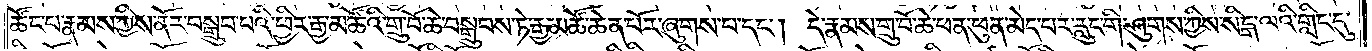ཚོང་པ་རྣམས་ཀྱིས་ནོར་བསྒྲུབ་པའི་ཕྱིར་རྒྱ་མཚོའི་གྲུ་བོ་ཆེ་བསྒྲུབས་ཏེ་རྒྱ་མཚོ་ཆེན་པོར་ཞུགས་པ་དང༌། དེ་རྣམས་གྲུ་བོ་ཆེ་ཕན་ཕུན་མེད་པར་རླུང་གི་ཤུགས་ཀྱིས་སིངྒ་ལའི་གླིང་དུ་
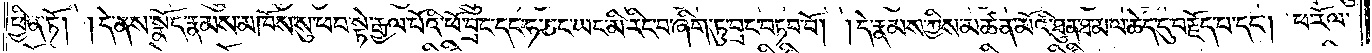ཕྱིན་ཏོ། །དེ་ནས་སྣོད་རྣམས་མཁོས་སུ་ཕབ་སྟེ་རྒྱལ་པོའི་ཕོ་བྲང་དང་ཧ་ཅང་ཡང་མི་རིང་བ་ཞིག་ཏུ་བྲང་བཏབ་བོ། །དེ་རྣམས་ཀྱིས་མཚན་མོའི་ཐུན་ཐ་མ་ལ་ཆེད་དུ་བརྗོད་པ་དང༌། ཕ་རོལ་
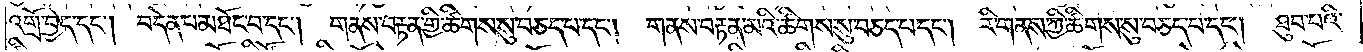འགྲོ་བྱེད་དང༌། བདེན་པ་མཐོང་བ་དང༌། གནས་བརྟན་གྱི་ཚིགས་སུ་བཅད་པ་དང༌། གནས་བརྟན་མའི་ཚིགས་སུ་བཅད་པ་དང༌། རི་གནས་ཀྱི་ཚིགས་སུ་བཅད་པ་དང༌། ཐུབ་པའི་
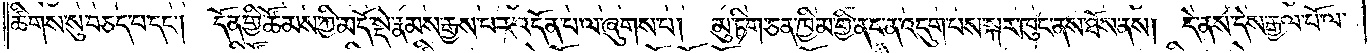ཚིགས་སུ་བཅད་པ་དང༌། དོན་གྱི་ཚོམས་ཀྱི་མདོ་སྡེ་རྣམས་རྒྱས་པར་འདོན་པ་ལ་ཞུགས་པ། མུ་ཏིག་ཅན་ཁྱིམ་གྱི་ནང་ན་འདུག་པས་སྐར་ཁུང་ནས་ཐོས་ནས། དེ་ནས་དེས་རྒྱལ་པོ་ལ་
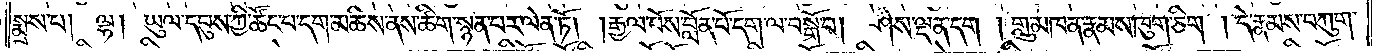སྨྲས་པ། ལྷ། ཡུལ་དབུས་ཀྱི་ཚོང་པ་དག་མཆིས་ནས་ཚིག་སྙན་པར་ལེན་ཏོ། །རྒྱལ་པོས་བློན་པོ་དག་ལ་བསྒོ་བ། ཤེས་ལྡན་དག། གླུ་མཁན་རྣམས་ཁུག་ཅིག། དེ་རྣམས་བཀུག་
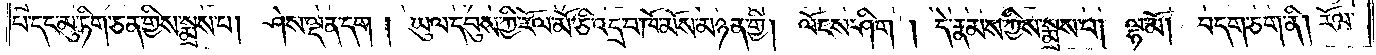པ་དང་མུ་ཏིག་ཅན་གྱིས་སྨྲས་པ། ཤེས་ལྡན་དག །ཡུལ་དབུས་ཀྱི་རོལ་མོ་ཅི་འདྲ་བ་ཁོ་མོས་མཉན་གྱི། ལོངས་ཤིག །དེ་རྣམས་ཀྱིས་སྨྲས་པ། ལྷ་མོ། བདག་ཅག་ནི། རོལ་
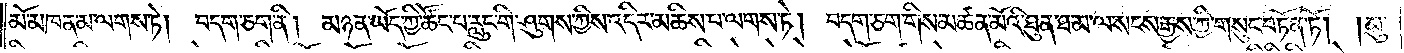མོ་མཁན་མ་ལགས་ཏེ། བདག་ཅག་ནི། མཉན་ཡོད་ཀྱི་ཚོང་པ་རླུང་གི་ཤུགས་ཀྱིས་འདིར་མཆིས་པ་ལགས་ཏེ། བདག་ཅག་གིས་མཚན་མོའི་ཐུན་ཐ་མ་ལ་སངས་རྒྱས་ཀྱི་གསུང་བཏོན་ཏོ། །མུ་
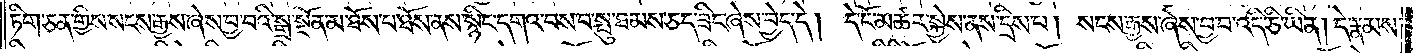ཏིག་ཅན་གྱིས་སངས་རྒྱས་ཞེས་བྱ་བའི་སྒྲ་སྔོན་མ་ཐོས་པ་ཐོས་ནས་སྙིང་དགའ་བས་བ་སྤུ་ཐམས་ཅད་ཟིང་ཞེས་བྱེད་དེ། དེ་ངོ་མཚར་སྐྱེས་ནས་དྲིས་པ། སངས་རྒྱས་ཞེས་བྱ་བ་འདི་ཅི་ཡིན། དེ་རྣམས་
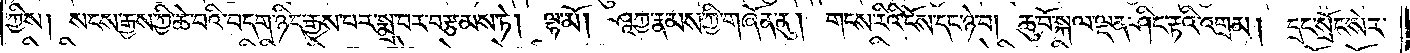ཀྱིས། སངས་རྒྱས་ཀྱི་ཆེ་བའི་བདག་ཉིད་རྒྱས་པར་སྨྲ་བར་བརྩམས་ཏེ། ལྷ་མོ། ཤཱཀྱ་རྣམས་ཀྱི་གཞོན་ནུ། གངས་རིའི་ངོས་དང་ཉེ་བ། ཆུ་བོ་སྐལ་ལྡན་ཤིང་རྟའི་འགྲམ། དྲང་སྲོང་སེར་
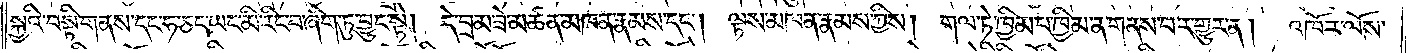སྐྱའི་བསྟི་གནས་དང་ཧ་ཅང་ཡང་མི་རིང་བ་ཞིག་ཏུ་བྱུང་སྟེ། དེ་བྲམ་ཟེ་མཚན་མཁན་རྣམས་དང༌། ལྟས་མཁན་རྣམས་ཀྱིས། གལ་ཏེ་ཁྱིམ་པ་ཁྱིམ་ན་གནས་པར་གྱུར་ན། འཁོར་ལོས་
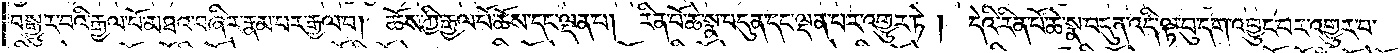བསྒྱུར་བའི་རྒྱལ་པོ་མཐའ་བཞིར་རྣམ་པར་རྒྱལ་བ། ཆོས་ཀྱི་རྒྱལ་པོ་ཆོས་དང་ལྡན་པ། རིན་པོ་ཆེ་སྣ་བདུན་དང་ལྡན་པར་འགྱུར་ཏེ། དེའི་རིན་པོ་ཆེ་སྣ་བདུན་འདི་ལྟ་བུ་དག་འབྱུང་བར་འགྱུར་བ་
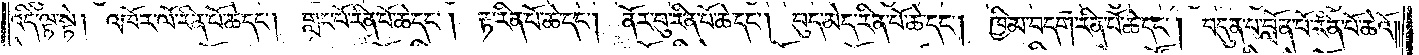འདི་ལྟ་སྟེ། འཁོར་ལོ་རིན་པོ་ཆེ་དང༌། གླང་པོ་རིན་པོ་ཆེ་དང༌། རྟ་རིན་པོ་ཆེ་དང༌། ནོར་བུ་རིན་པོ་ཆེ་དང༌། བུད་མེད་རིན་པོ་ཆེ་དང༌། ཁྱིམ་བདག་རིན་པོ་ཆེ་དང༌། བདུན་པ་བློན་པོ་རིན་པོ་ཆེའོ༎
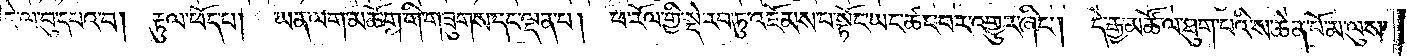དེ་ལ་བུ་དཔའ་བ། རྟུལ་ཕོད་པ། ཡན་ལག་མཆོག་གི་གཟུགས་དང་ལྡན་པ། ཕ་རོལ་གྱི་སྡེ་རབ་ཏུ་འཇོམས་པ་སྟོང་ཡང་ཚང་བར་འགྱུར་ཞིང༌། དེ་རྒྱ་མཚོ་ལ་ཐུག་པའི་ས་ཆེན་པོ་མ་ལུས་
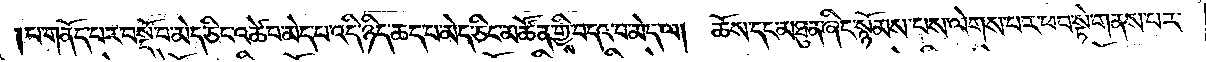།པ་གནོད་པར་བསྡོ་བ་མེད་ཅིང་འཚེ་བ་མེད་པ་འདི་ཉིད་ཆད་པ་མེད་ཅིང་མཚོན་གྱིས་བདའ་བ་མེད་ལ། ཆོས་དང་མཐུན་ཞིང་སྙོམས་པས་ལེགས་པར་ཕབ་སྟེ་གནས་པར་
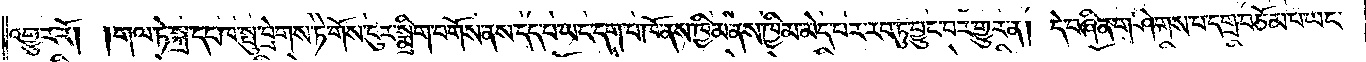འགྱུར་རོ། །གལ་ཏེ་སྐྲ་དང་ཁ་སྤུ་བྲེགས་ཏེ་གོས་ངུར་སྨྲིག་བགོས་ནས་དད་པ་ཡང་དག་པ་ཁོ་ནས་ཁྱིམ་ནས་ཁྱིམ་མེད་པར་རབ་ཏུ་བྱུང་བར་གྱུར་ན། དེ་བཞིན་གཤེགས་པ་དགྲ་བཅོམ་པ་ཡང་
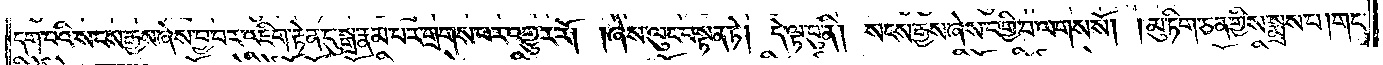དག་པའི་སངས་རྒྱས་ཞེས་བྱ་བ་འཇིག་རྟེན་དུ་སྒྲ་རྣམ་པར་གྲགས་པར་འགྱུར་རོ། །ཞེས་ལུང་བསྟན་ཏེ། དེ་ལྟ་བུ་ནི། སངས་རྒྱས་ཞེས་བགྱི་བ་ལགས་སོ། །མུ་ཏིག་ཅན་གྱིས་སྨྲས་པ། གང་
